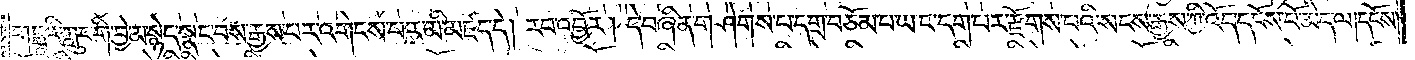གངྒའི་ཀླུང་གི་བྱེ་མ་སྙེད་སྣང་བས་རྒྱས་པར་འགེངས་པར་མི་མཛད་དེ། རབ་འབྱོར། དེ་བཞིན་གཤེགས་པ་དགྲ་བཅོམ་པ་ཡང་དག་པར་རྫོགས་པའི་སངས་རྒྱས་ཀྱི་འོད་དངོས་པོ་མེད་ལ། དངོས་
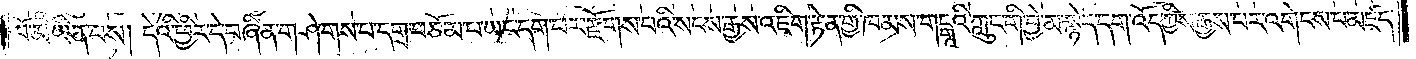པོ་མ་ཡིན་པས། དེའི་ཕྱིར་དེ་བཞིན་གཤེགས་པ་དགྲ་བཅོམ་པ་ཡང་དག་པར་རྫོགས་པའི་སངས་རྒྱས་འཇིག་རྟེན་གྱི་ཁམས་གངྒཱའི་ཀླུང་གི་བྱེ་མ་སྙེད་དག་འོད་ཀྱིས་རྒྱས་པར་འགེངས་པ་མཛད་
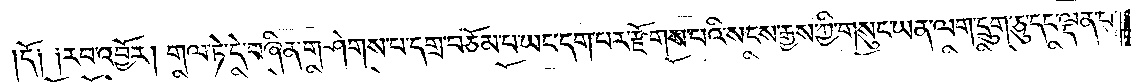དོ། །རབ་འབྱོར། གལ་ཏེ་དེ་བཞིན་གཤེགས་པ་དགྲ་བཅོམ་པ་ཡང་དག་པར་རྫོགས་པའི་སངས་རྒྱས་ཀྱི་གསུང་ཡན་ལག་དྲུག་ཅུ་དང་ལྡན་པ་
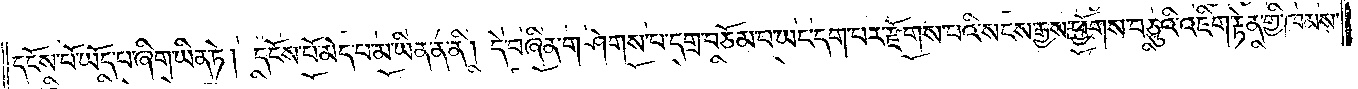དངོས་པོ་ཡོད་པ་ཞིག་ཡིན་ཏེ། དངོས་པོ་མེད་པ་མ་ཡིན་ན་ནི། དེ་བཞིན་གཤེགས་པ་དགྲ་བཅོམ་པ་ཡང་དག་པར་རྫོགས་པའི་སངས་རྒྱས་ཕྱོགས་བཅུའི་འཇིག་རྟེན་གྱི་ཁམས་
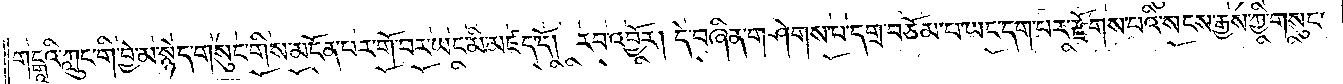གངྒཱའི་ཀླུང་གི་བྱེ་མ་སྙེད་གསུང་གིས་མངོན་པར་གོ་བར་ཡང་མི་མཛད་དེ། རབ་འབྱོར། དེ་བཞིན་གཤེགས་པ་དགྲ་བཅོམ་པ་ཡང་དག་པར་རྫོགས་པའི་སངས་རྒྱས་ཀྱི་གསུང་
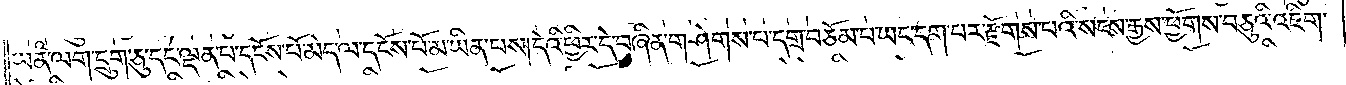ཡན་ལག་དྲུག་ཅུ་དང་ལྡན་པ་དངོས་པོ་མེད་ལ་དངོས་པོ་མ་ཡིན་པས། དེའི་ཕྱིར་དེ་བཞིན་གཤེགས་པ་དགྲ་བཅོམ་པ་ཡང་དག་པར་རྫོགས་པའི་སངས་རྒྱས་ཕྱོགས་བཅུའི་འཇིག་
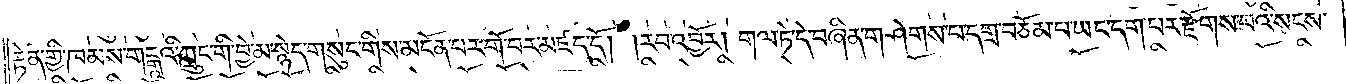རྟེན་གྱི་ཁམས་གངྒཱའི་ཀླུང་གི་བྱེ་མ་སྙེད་གསུང་གིས་མངོན་པར་གོ་བར་མཛད་དོ། །རབ་འབྱོར། གལ་ཏེ་དེ་བཞིན་གཤེགས་པ་དགྲ་བཅོམ་པ་ཡང་དག་པར་རྫོགས་པའི་སངས་
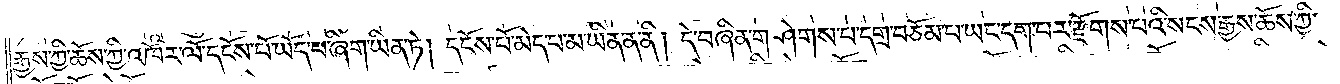རྒྱས་ཀྱི་ཆོས་ཀྱི་འཁོར་ལོ་དངོས་པོ་ཡོད་པ་ཞིག་ཡིན་ཏེ། དངོས་པོ་མེད་པ་མ་ཡིན་ན་ནི། དེ་བཞིན་གཤེགས་པ་དགྲ་བཅོམ་པ་ཡང་དག་པར་རྫོགས་པའི་སངས་རྒྱས་ཆོས་ཀྱི་
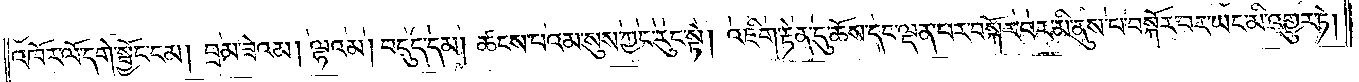འཁོར་ལོ་དགེ་སྦྱོང་ངམ་བྲམ་ཟེའམ། ལྷ་འམ། བདུད་དམ། ཚངས་པ་འམ་སུས་ཀྱང་རུང་སྟེ། འཇིག་རྟེན་དུ་ཆོས་དང་ལྡན་པར་བསྐོར་བར་མི་ནུས་བསྐོར་བར་ཡང་མི་འགྱུར་ཏེ།
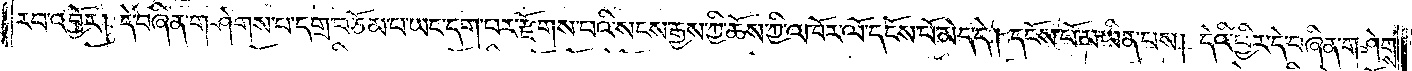རབ་འབྱོར། དེ་བཞིན་གཤེགས་པ་དགྲ་བཅོམ་པ་ཡང་དག་པར་རྫོགས་པའི་སངས་རྒྱས་ཀྱི་ཆོས་ཀྱི་འཁོར་ལོ་དངོས་པོ་མེད་དེ། དངོས་པོ་མ་ཡིན་པས། དེའི་ཕྱིར་དེ་བཞིན་གཤེགས་
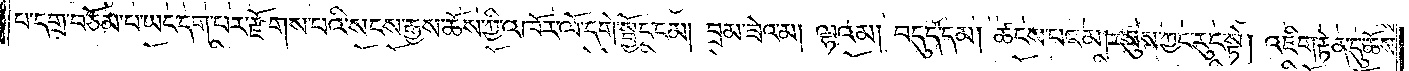པ་དགྲ་བཅོམ་པ་ཡང་དག་པར་རྫོགས་པའི་སངས་རྒྱས་ཆོས་ཀྱི་འཁོར་ལོ་དགེ་སྦྱོང་ངམ། བྲམ་ཟེ་འམ། ལྷའམ། བདུད་དམ། ཚངས་པ་འམ། སུས་ཀྱང་རུང་སྟེ། འཇིག་རྟེན་དུ་ཆོས་
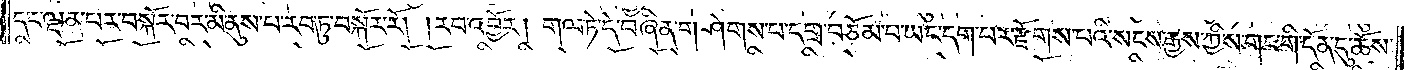དང་ལྡན་པར་བསྐོར་བར་མི་ནུས་པ་རབ་ཏུ་བསྐོར་རོ། །རབ་འབྱོར། གལ་ཏེ་དེ་བཞིན་གཤེགས་པ་དགྲ་བཅོམ་པ་ཡང་དག་པར་རྫོགས་པའི་སངས་རྒྱས་ཀྱིས་གང་གི་དོན་དུ་ཆོས་
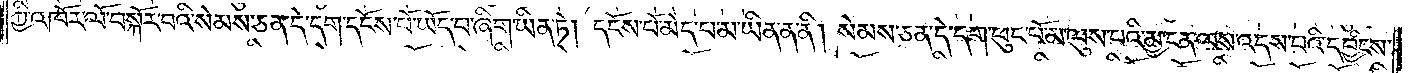ཀྱི་འཁོར་ལོ་བསྐོར་བའི་སེམས་ཅན་དེ་དག་དངོས་པོ་ཡོད་པ་ཞིག་ཡིན་ཏེ། དངོས་པོ་མེད་པ་མ་ཡིན་ན་ནི། སེམས་ཅན་དེ་དག་ཕུང་པོ་མ་ལུས་པའི་མྱ་ངན་ལས་འདས་པའི་དབྱིངས་
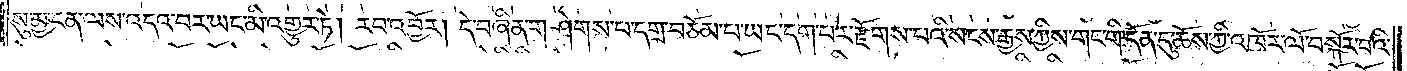སུ་མྱ་ངན་ལས་འདའ་བར་ཡང་མི་འགྱུར་ཏེ། རབ་འབྱོར། དེ་བཞིན་གཤེགས་པ་དགྲ་བཅོམ་པ་ཡང་དག་པར་རྫོགས་པའི་སངས་རྒྱས་ཀྱིས་གང་གི་དོན་དུ་ཆོས་ཀྱི་འཁོར་ལོ་བསྐོར་བའི་
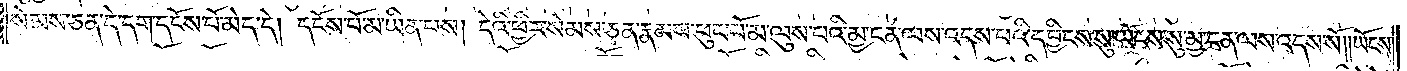སེམས་ཅན་དེ་དག་དངོས་པོ་མེད་དེ། དངོས་པོ་མ་ཡིན་པས། དེའི་ཕྱིར་སེམས་ཅན་རྣམས་ཕུང་པོ་མ་ལུས་པའི་མྱ་ངན་ལས་འདས་པའི་དབྱིངས་སུ་ཡོངས་སུ་མྱ་ངན་ལས་འདས་སོ། །ཡོངས་
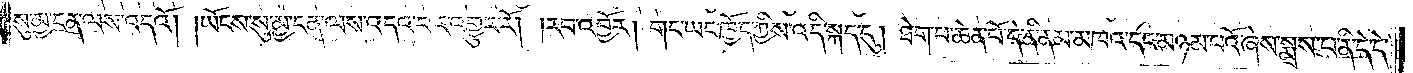སུ་མྱ་ངན་ལས་འདའོ། །ཡོངས་སུ་མྱ་ངན་ལས་འདའ་བར་འགྱུར་རོ། །རབ་འབྱོར། གང་ཡང་ཁྱོད་ཀྱིས་འདི་སྐད་དུ། ཐེག་པ་ཆེན་པོ་དེ་ནི་ནམ་མཁའ་དང་མཉམ་པའོ་ཞེས་སྨྲས་པ་ནི་དེ་དེ་
